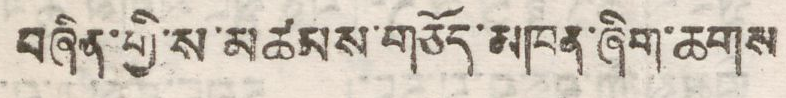བཞིན་གྱི་ས་མཚམས་གཅོད་མཁན་ཞིག་ཆགས
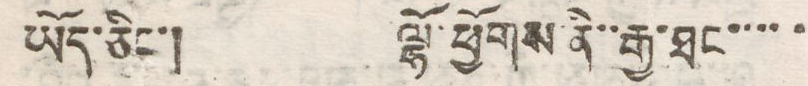ཡོད་ཅིང་། ལྷོ་ཕྱོགས་ནི་རྒྱ་ཐང་་་་་
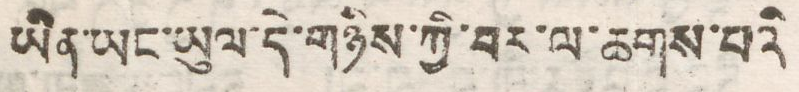ཡིན་ཡང་ཡུལ་དེ་གཉིས་ཀྱི་བར་ལ་ཆགས་པའི
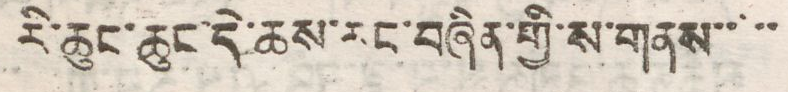རི་ཆུང་ཆུང་དེ་ཆས་རང་བཞིན་གྱི་ས་གནས་་་་
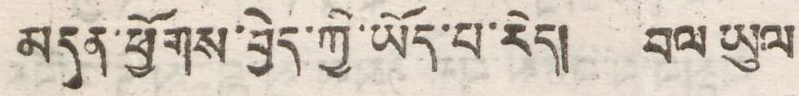མདུན་ཕྱོགས་བྱེད་ཀྱི་ཡོད་པ་རེད། བལ ཡུལ
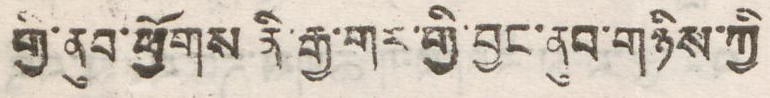གྱི་ནུབ་ཕྱོགས ནི་རྒྱ་གར་གྱི་བྱང་ནུབ་གཉིས་ཀྱི
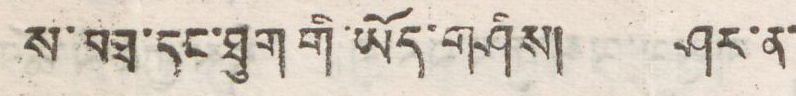ས་མཐ་དང་ཐུག གི་ཡོད་གཤིས། ཤར་ན་
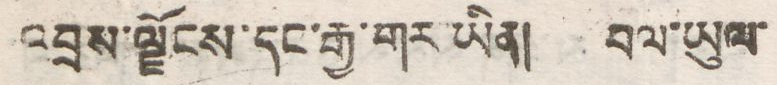འབྲས་ལྗོངས་དང་རྒྱ་གར་ཡིན། བལ་ཡུལ་
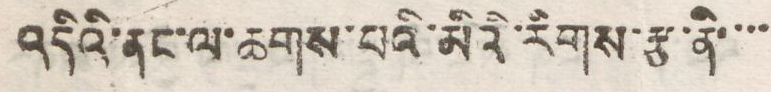འདིའི་ནང་ལ་ཆགས་པའི་མིའི་རིགས་རྩ་ནི་་་་
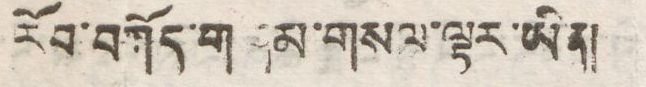རོབ་བཀོད་གནམ་གསལ་ལྟར་ཡིན། །
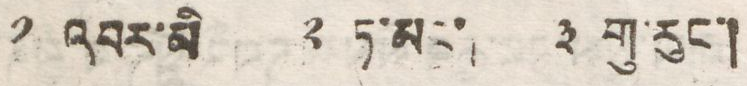༡ འབར་མི ༢ ཏ་མང་། ༣ གུ་རུང་།
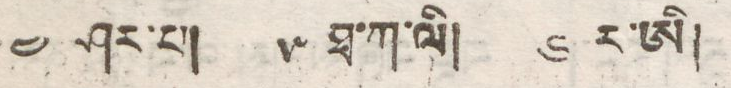༤ ཤར་པ། ༥ ཐ་ཀ་ལི། ༦ ར་ཨི།
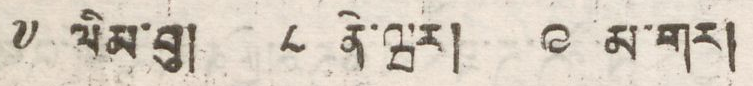༧ ལིམ་བུ། ༨ ནེ་ཝར། ༩ མ་གར།
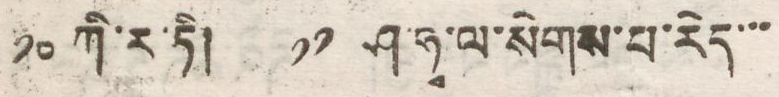༡༠ ཀི་ར་ཏི། ༡༡ ཤ་ཧ་ལ་སེགས་པ་རེད་་་
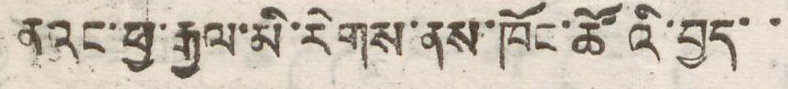ནའང་ཕྱ་རྒྱལ་མི་རིགས་ནས་ཁོང་ཚོའི་བྱད་
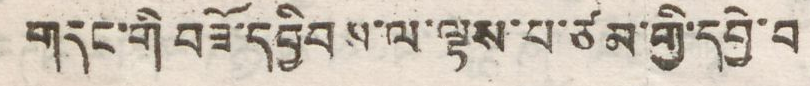གདང་གི་བཟོ་དབྱིབས་ལ་ལྟས་པ་ཙམ་གྱི་དབྱེ་བ
